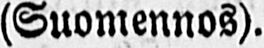(Suomennos).
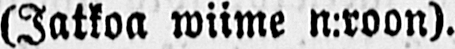(Jatkoa wiime n:roon).
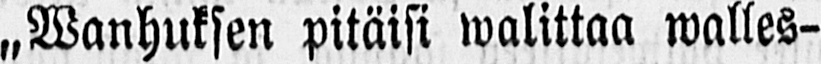„Wanhuksen pitäisi walittaa walles-
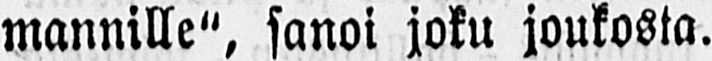mannille" sanoi joku joukosta.
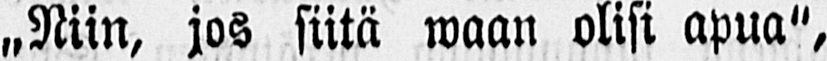„Niin, jos siitä waan olisi apua",
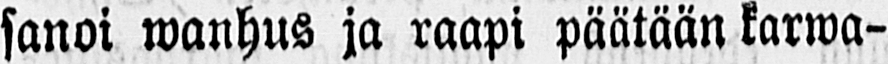sanoi wanhus ja raapi päätään karwa-
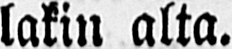lakin alta.
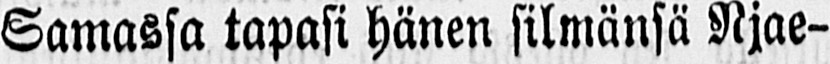Samassa tapasi hänen silmänsä Njae-
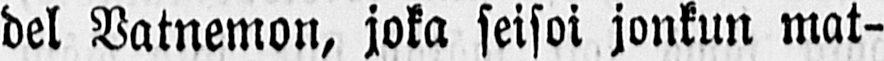del Vatnemon, joka seisoi jonkun mat-
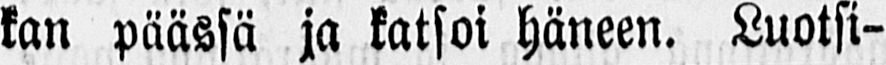kan päässä ja katsoi häneen. Luotsi-
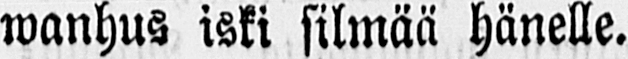wanhus iski silmää hänelle.
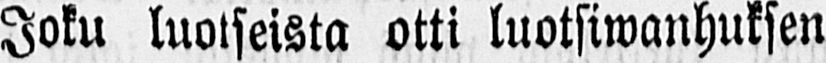Joku luotseista otti luotsiwanhuksen
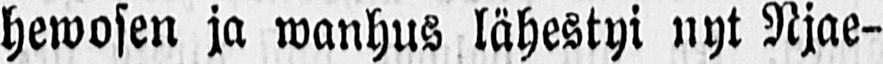hewosen ja wanhus lähestyi nyt Njae-
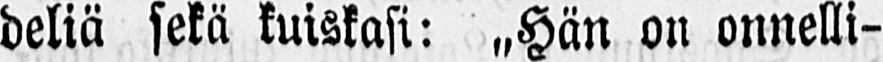deliä sekä kuiskasi: „Hän on onnelli-
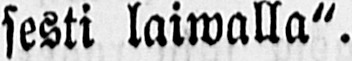sesti laiwalla".
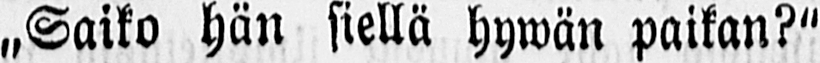„Saiko hän siellä hywän paikan?"
